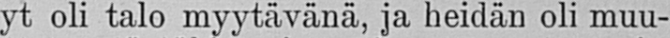Nyt oli talo myytävänä, ja heidän oli muu-
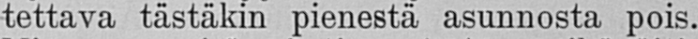tettava tästäkin pienestä asunnosta pois.
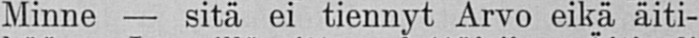Minne — sitä ei tiennyt Arvo eikä äiti-
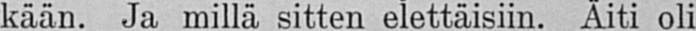kään. Ja millä sitten elettäisiin, Äiti oli
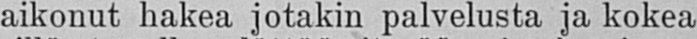aikonut hakea jotakin palvelusta ja kokea
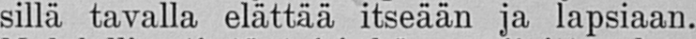sillä tavalla elättää itseään ja lapsiaan.
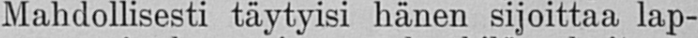Mahdollisesti täytyisi hänen sijoittaa lap-
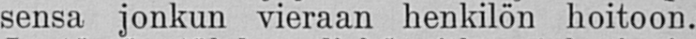sensa jonkun vieraan henkilön hoitoon.
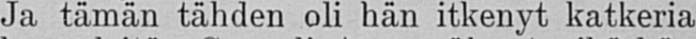Ja tämän tähden oli hän itkenyt katkeria
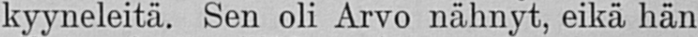kyyneleitä Sen oli Arvo nähnyt, eikä hän
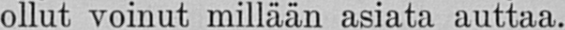ollut voinut millään asiata auttaa.
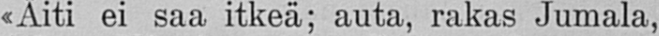«Äiti ei saa itkeä; auta, rakas Jumala,
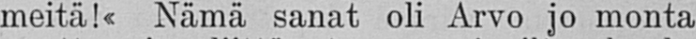meitä!« Nämä sanat oli Arvo jo monta
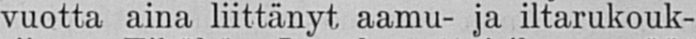vuotta aina liittänyt aamu- ja iltarukouk-
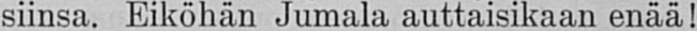siinsa. Eiköhän Jumala auttaisikaan enää!
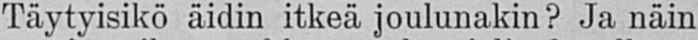Täytyisikö äidin itkeä joulunakin? Ja näin
